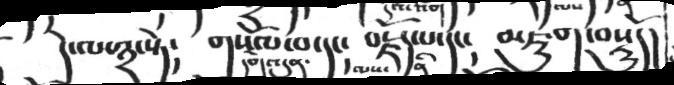དེ་ལ་༣་སྟེ།  གསོལ་བ་དང།    བརྗོད་པ་དང།   མཇུག་བསྡུད་དོ།།
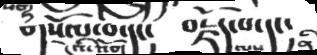གསོལ་པ་དང༴   བརྗོད་པ་དང༴
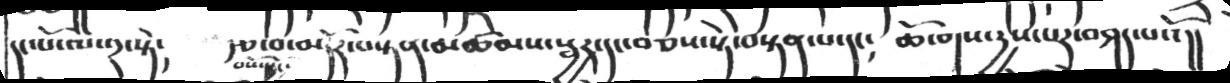དང་པོ་ལ་༢་སྟེ༴  རྩ་བ་མདོར་བསྟན་མཚམས་སྦྱར་དང་བཅས་སྟེ་་བསྟན་པ་དང༴   ཆོ་གས་དྱས་པར་བཤད་པའོ།།
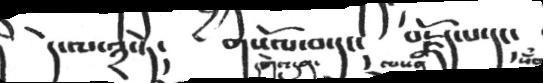དེ་ལ་༣་ཏེ༴   གསོལ་བ་དང༴  བརྗོད་པ་དང༴
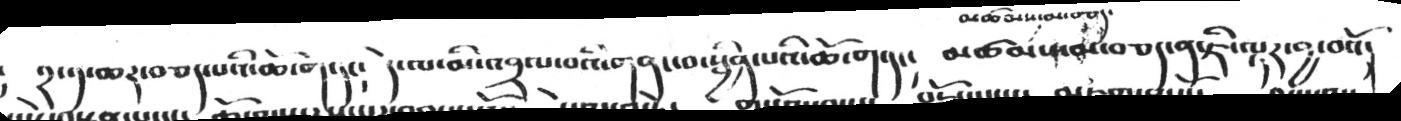༢་༡་ཆར་བཅད་པའི་ཆོ་ག་དང༴  དེ་ལ་མི་འབྲལ་བའི་གནང་བ་སྦྱིན་པའི་ཆོ་ག་དང༴  མཚམས་མ་བཅད་ན་ཇི་ལྟར་བྱ་བའོ༴
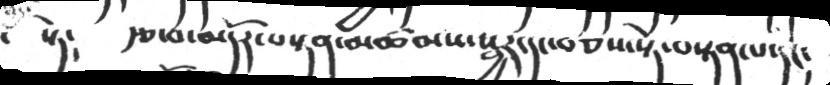སྟེ། རྩ་བ་མདོར་བསྟན་མཚམས་སྦྱར་དང་བཅས་སྟེ་བསྟན་པ་དང།
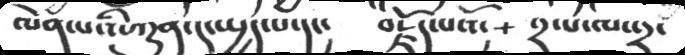ལེན་པའི་ཀུན་དུ་སྤྱད་པ་དང། བརྗོད་པའོ་ ༢་པ་ལ་༢་
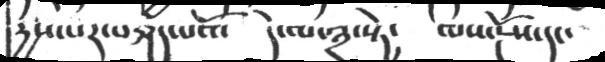རྱས་པར་བཤད་པའོ། དེ་ལ་༣་སྟེ། ལས་དངོས་དང་
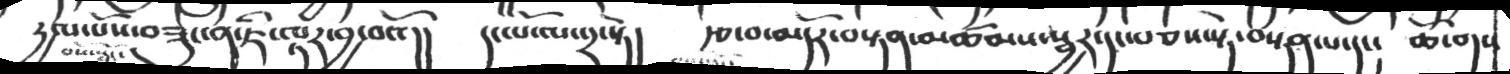རྱལ་པོས་བཟུང་ན་ཇི་ལྟར་བྱ་བའོ།། དང་པོ་ལ་༢་སྟེ། རྩ་བ་མདོར་བསྟན་མཚམས་སྦྱར་དང་བཅས་སྟེ་བསྟན་པ་དང། ཆོ་གས
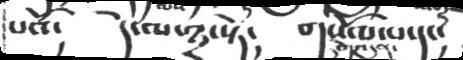པའོ༴   དེ་ལ་༣་སྟེ༴  གསོལ་པ་དང༴
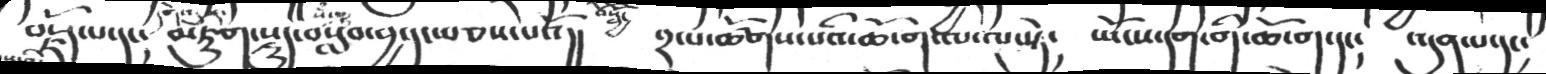བརྗོད་པ་དང༴  མཇུག་སྡུད་བསླབ་བྱ་དང་བཅས་པའོ།།  ༢་པ་ཚོགས་པའི་ཆོ་ག་ལ་ལྔ་སྟེ༴   ཡོངས་དག་གི་ཆོ་ག་དང༴   འདུན་པ་དང༴
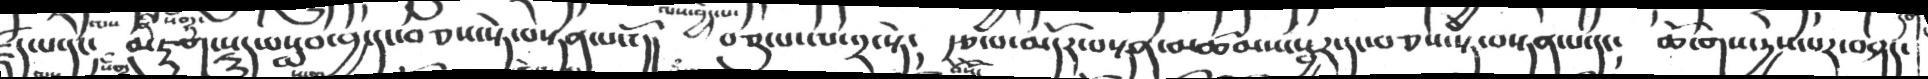རྗོད་པ་དང་།  མཇུག་སྡུད་བསླབ་བྱ་དང་བཅས་སྟེ་བསྟན་པའོ།།  བཅུ་པ་ལ་༢་སྟེ༴  རྩ་པ་མདོར་བསྟན་མཚམས་སྦྱར་དང་བཅས་སྟེ་བསྟན་པ་དང༴   ཆོ་ག་དྱས་པར་བཤད་
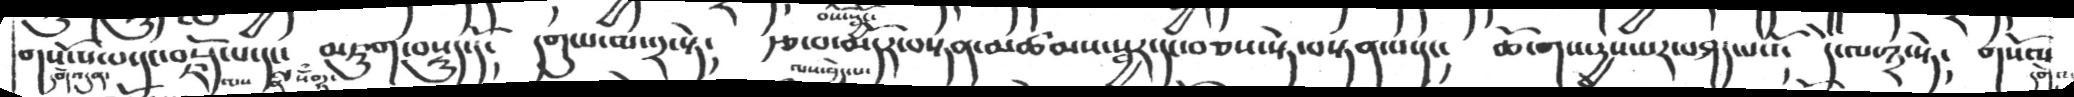གསོལ་པ་དང་བརྗོད་པ་དང་  མཇུག་བསྡུད་དོ༴  དགུ་པ་མ་༢་སྟེ༴   རྩ་པ་མདོར་བསྟན་མཚམས་སྦྱར་དང་བཅས་སྟེ་བསྟན་པ་དང༴   ཆོ་གས་དྱས་པར་བཤད་པའོ༴  དེ་ལ་༣་སྟེ༴   གསོལ
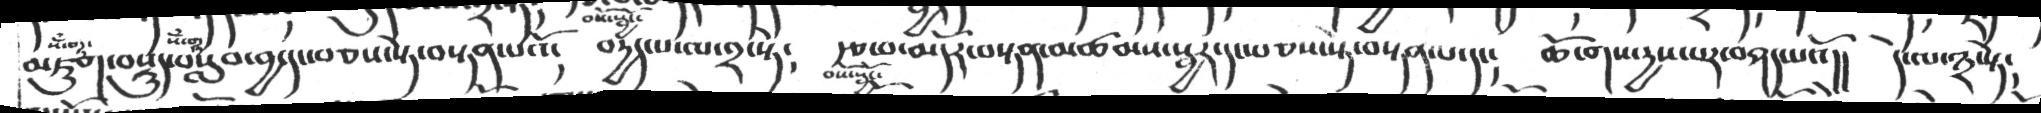མཇུག་བསྡུད་བསླབ་བྱ་དང་བཅས་སྟེ་བསྟན་པའོ༴  བདྱད་པ་ལ་༢་སྟེ༴   རྩ་བ་མདོར་བསྟན་མཚམས་སྦྱར་དང་བཅས་སྟེ་བསྟན་པ་དང༴  ཆོ་གས་དྱས་པར་བཤད་པའོ།།  དེ་ལ་༣་སྟེ༴
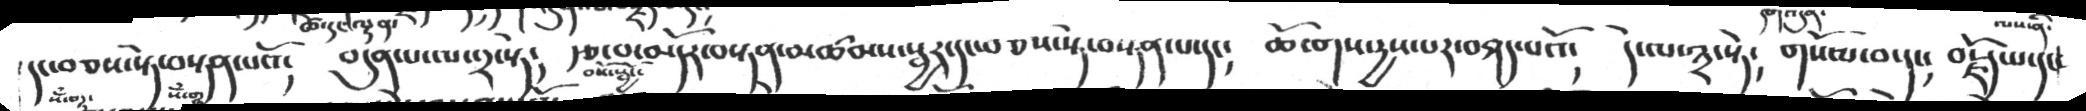དང་བཅས་སྟེ་བསྟན་པའོ༴   བདུན་པ་ལ་༢་སྟེ༴  རྩ་བ་མདོར་བསྟན་མཚམས་སྦྱར་དང་བཅས་སྟེ་བསྟན་པ་དང༴   ཆོ་ག་དྱས་པར་བཤད་པའོ༴   དེ་ལ་༣་སྟེ༴   གསོལ་བ་དང༴  བརྗོད་པ་དང་
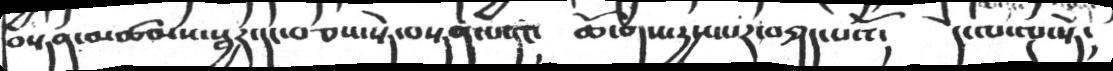བསྟན་མཚམས་སྦྱར་དང་བཅས་སྟེ་བསྟན་པ་དང། ཆོ་གས་རྱས་པར་བཤད་པའོ། དེ་ལ་ལྔ་སྟེ།
